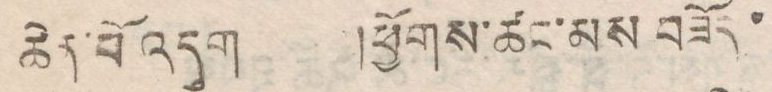ཆེན་པོ་འདུག །ཕྱོགས་ཚང་མས བཟོད་
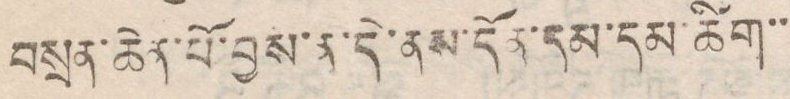བསྲན་ཆེན་པོ་བྱས་ན་དེ་ནས་དོན་དམ་དམ་ཚིག་་
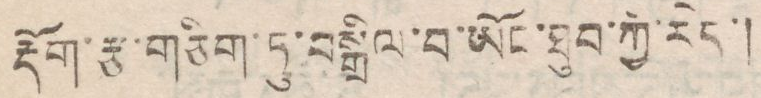རྡོག་རྩ་གཅིག་ཏུ་བསྒྲིལ་བ་ཡོང་ཐུབ་ཀྱི་རེད་།
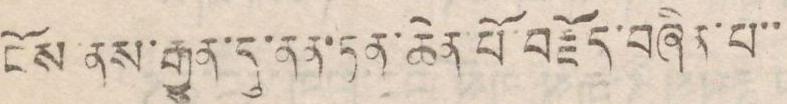ངོས་ནས་རྒྱུན་དུ་ནན་ཏན་ཆེན་པོ་བརྗོད་བཞིན་པ་་
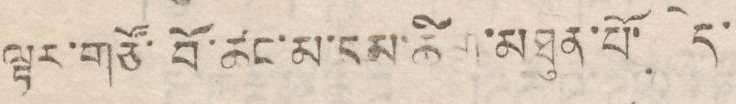ལྟར་གཙོ་བོ་ཚང་མ་དམ་ཚིག་མཐུན་པོ་དེ་
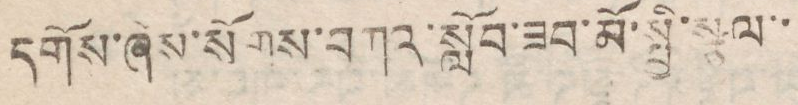དགོས་ཞེས་སོགས་བཀའ་སློབ་ཟབ་མོ་སྤྱི་སྩལ་་
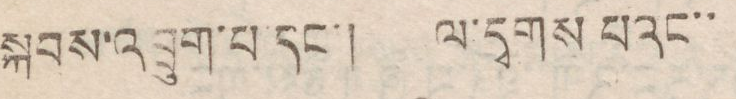སྐབས་འབྲུག་པ་དང་། ལ་དྭགས པའང་་
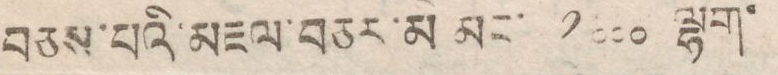བཅས་པའི་མཀལ་བཅར་མི མང་ ༡༠༠༠ ལྷག་་
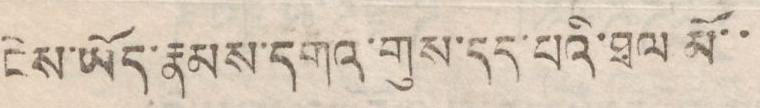ངེས་ཡོད་རྣམས་དགའ་གུས་དད་པའི་ཐལ་མོ་་
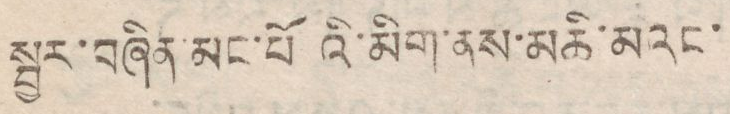སྦྱར་བཞིན་མང་པོཨའི་མིག་ནས་མཆི་མའང་
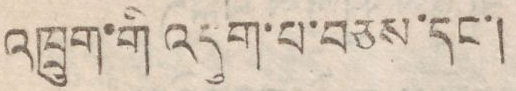འཁྲུག་གི་འདུག་པ་བཅས་དང་།
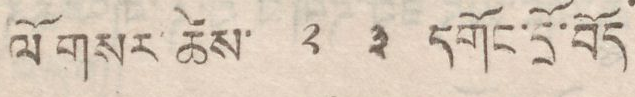ལོ་གསར་ཚེས་ ༢ ༣ དགོང་དྲོ་བོད
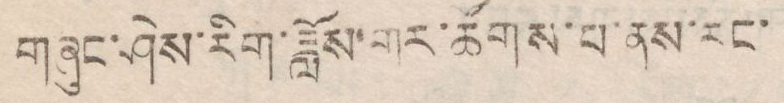གཞུང་ཤེས་རིག་ཟློས་གར་ཚོགས་པ་ནས་རང་
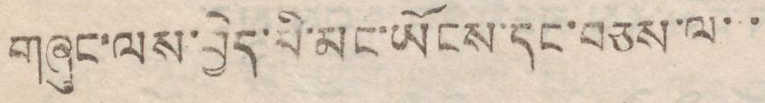གཞུང་ལས་བྱེད་མི་མང་ཡོངས་དང་བཅས་ལ་་
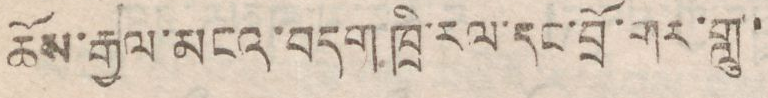ཆོས་རྒྱལ་མངའ་བདག་ཁྲི་རལ་དང་བྲོ་གར་གླུ་
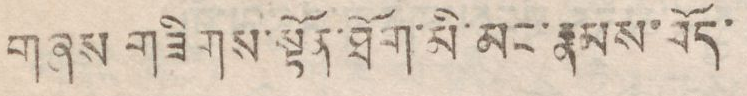གཞས གཟིགས་སྟོན་ཐོག་མི་མང་རྣམས་བོད་
